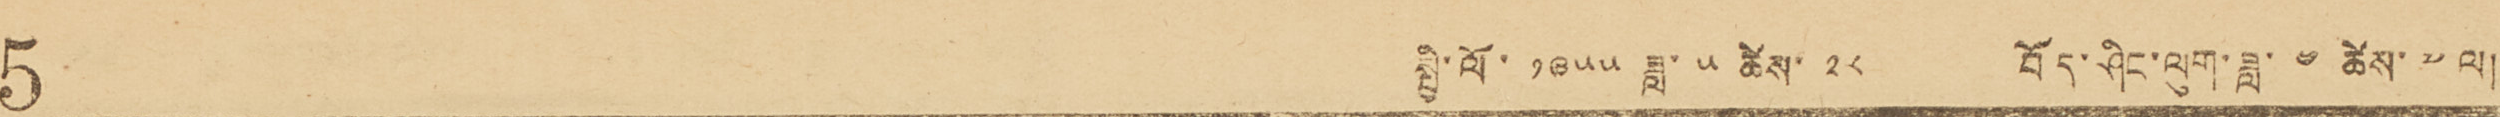5 སྤྱི་ལོ་ ༡༩༥༥ ཟླ་ ༥ ཚེས་ ༢༨ བོད་ཤིང་ལུག་ཟླ་ ༤ ཚེས་ ༧ ལ།
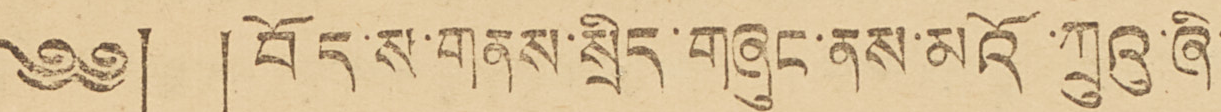༄༅། །བོད་ས་གནས་སྲིད་གཞུང་ནས་མའོ་ཀྲུའུ་ཞི་
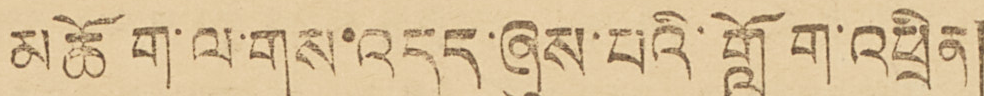མཆོག་ལ་གུས་འདུད་ཞུས་པའི་གློག་འཕྲིན།
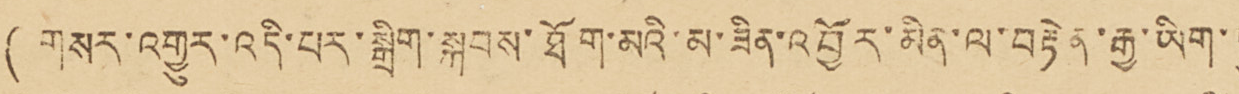( གསར་འགྱུར་འདི་པར་སྒྲིག་སྐབས་ཐོག་མའི་མ་ཟིན་འབྱོར་མིན་ལ་བརྟེན་རྒྱ་ཡིག་ཏུ་
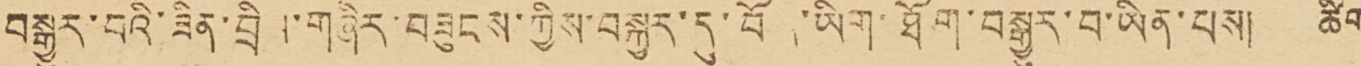བསྒྱུར་བའི་ཟིན་བྲིས་གཞིར་བཟུངས་ཀྱིས་བསྐུར་དུ་བོད་ཡིག་ཐོག་བསྒྱུར་བ་ཡིན་པས། ཚིག་
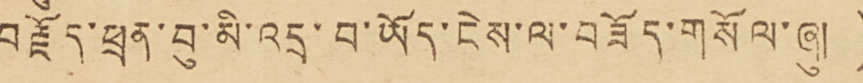བརྗོད་ཕྲན་བུ་མི་འདྲ་བ་ཡོད་ངེས་ལ་བཟོད་གསོལ་ཞུ། )
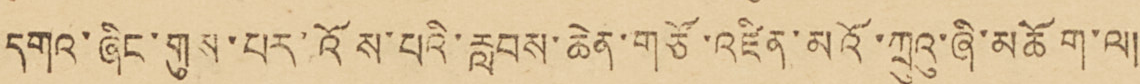དགའ་ཞིང་གུས་པར་འོས་པའི་རླབས་ཆེན་གཙོ་འཛིན་མའོ་ཀྲུའུ་ཞི་མཆོག་ལ།
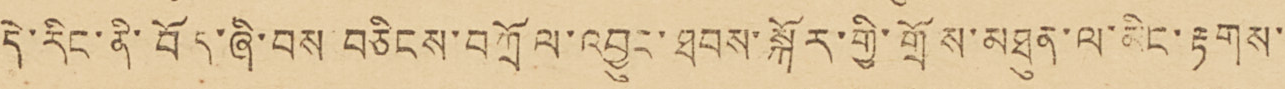དེ་རིང་ནི་བོད་ཞི་བས བཅིངས་བཀྲོལ་འབྱུང་ཐབས་སྐོར་གྱི་གྲོས་མཐུན་ལ་མིང་རྟགས་་་
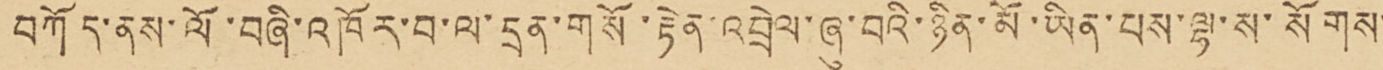བཀོད་ནས་ལོ་བཞི་འཁོར་བ་ལ་དྲན་གསོ་རྟེན་འབྲེལ་ཞུ་བའི་ཉིན་མོ་ཡིན་པས་ལྷ་ས་སོགས་
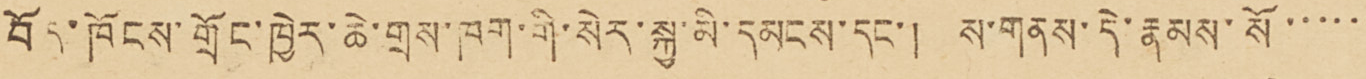བོད་ཁོངས་གྲོང་ཁྱེར་ཆེ་གྲས་ཁག་གི་སེར་སྐྱ་མི་དམངས་དང་། ས་གནས་དེ་རྣམས་སོ་་་་་་
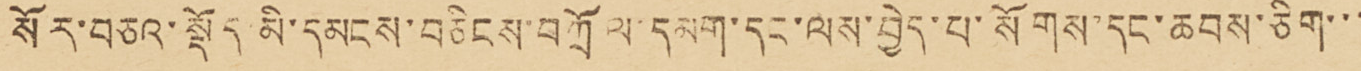སོར་བཅའ་སྡོད་མི་དམངས་བཅིངས་བཀྲོལ་དམག་དང་ལས་བྱེད་པ་སོགས་དང་ཆབས་ཅིག་་་་
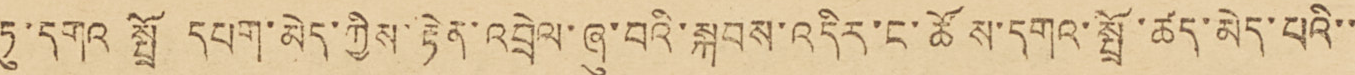ཏུ་དགའ སྤྲོ དམག་མེད་ཀྱིས་རྟེན་འབྲེལ་ཞུ་བའི་སྐབས་འདིར་ང་ཚོས་དགའ་སྤྲོ་ཚད་མེད་པའི་་་
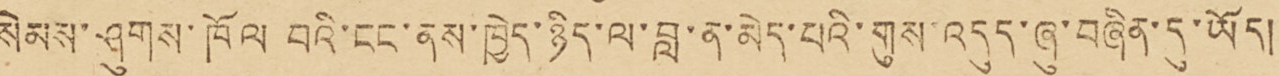སེམས་ཤུགས་ཁོལ བའི་ངང་ནས་ཁྱེད་ཉིད་ལ་བླ་ན་མེད་པའི་གུས་འདུད་ཞུ་བཞིན་དུ་ཡོད།
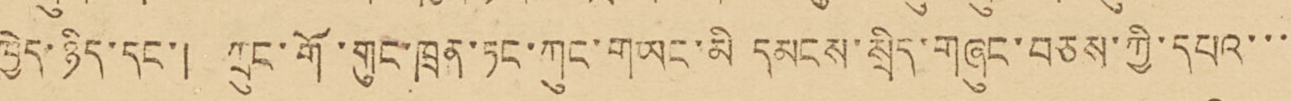ཁྱེད་ཉིད་དང་། ཀྲུང་གོ་གུང་ཁྲན་ཏང་ཀུང་གཡང་མི དམངས་སྲིད་གཞུང་བཅས་ཀྱི་དཔའ་་་་
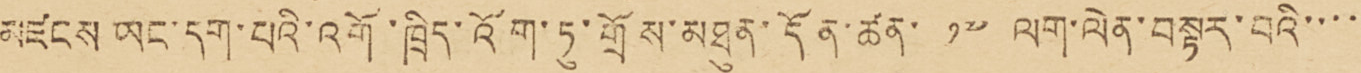མཛངས ཡང་དག་པའི་འགོ་ཁྲིད་འོག་ཏུ་གྲོས་མཐུན་དོན་ཚན་ ༡༧ ལག་ལེན་བསྟར་བའི་་་་་
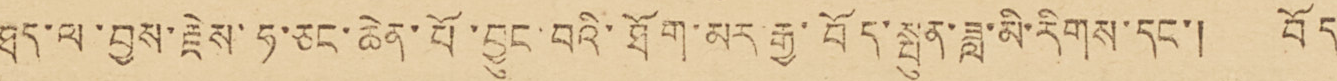ཐད་ལ་བྱས་རྗེས་ཧ་ཅང་ཆེན་པོ་བྱུང་བའི་ཐོག་མར་རྒྱ་བོད་སྤུན་ཟླ་མི་རིགས་དང་། བོད་་
